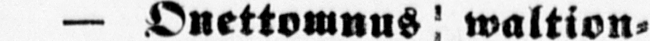— Onettomuus: waltion-
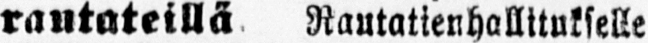rautateillä Rautatienhallitukselle
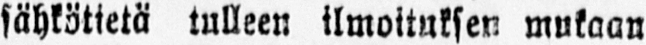sähkötietä tulleen ilmoituksen mukaan
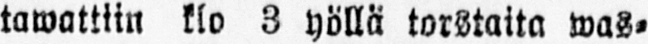tawattiin klo 3 yöllä torstaita was-
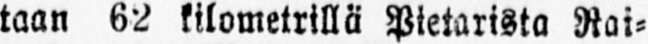taan 62 kilometrillä Pietarista Rai-
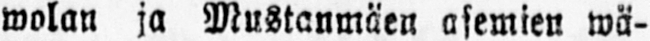wolan ja Mustanmäen asemien wä-
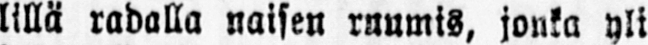lillä radalla naisen ruumis, jonka yli
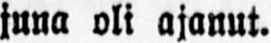juna oli ajanut.
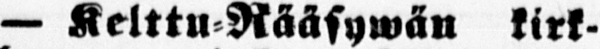— Kelttu-Rääsywän kirk-
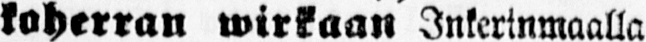koherran wirkaan Inkerinmaalla
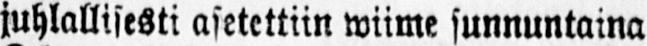juhlallisesti asetettiin wiime sunnuntaina
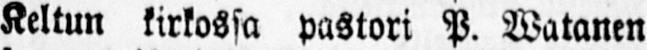Keltun kirkossa pastori P. Watanen
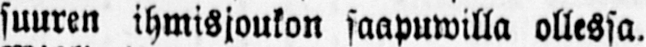suuren ihmisjoukon saapuwilla ollessa.
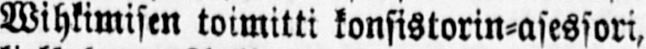Wihkimisen toimitti konsistorin-asessori,
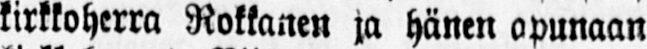kirkkoherra Rokkanen ja hänen apunaan
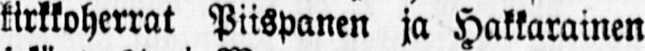kirkkoherrat Piispanen ja Hakkarainen
